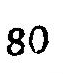80
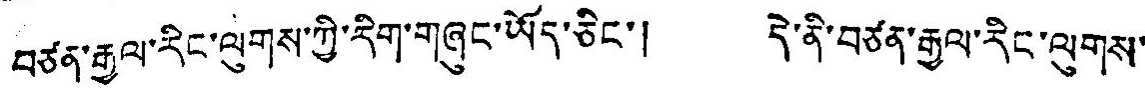བརྩན་རྒྱལ་རིང་ལུགས་ཀྱི་རིག་གཞུང་ཡོད་ཅིང་། དེ་ནི་བཙན་རྒྱལ་རིང་ལུགས་
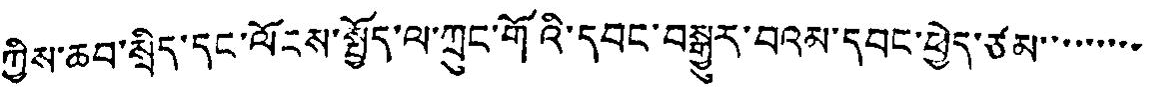རྱེས་ནུབ་སྲིད་དང་ལོངས་སྤྱོད་ལ་ཀྲུང་གོའི་དབང་བསྒྱུར་བའམ་དབང་ཕྱེད་ཙམ་་་་་་་་་
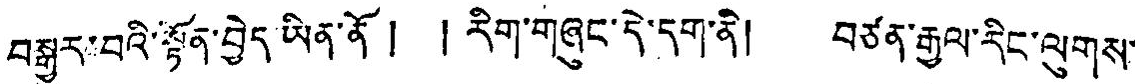བསྒྱུར་བའི་སྟོན་བྱེད་ཡིན་ནོ ། །རིག་གཞུང་དེ་དག་ནི། བཙན་རྒྱལ་རིང་ལུགས་
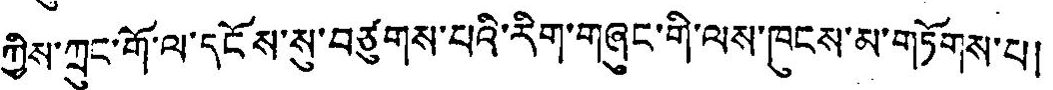ཀྱིས་ཀྲུང་གོ་ལ་དངོས་སུ་བཙུགས་པའི་རིག་གཞུང་གི་ལས་ཁུངས་མ་གཏོགས་པ།
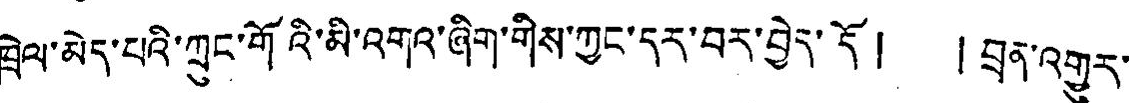ཁྲེལ་མེད་པའི་ཀྲུང་གོའི་མི་འགའ་ཞིག་གིས་ཀྱང་དར་བར་བྱེད་དོ། །བྲན་འགྱུར་
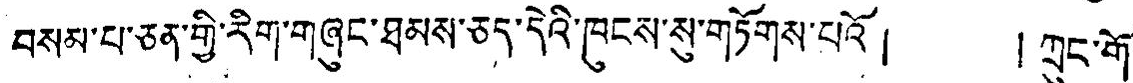བསམ་པ་ཅན་གྱི་རིག་གཞུང་ཐམས་ཅད་དེའི་ཁུངས་སུ་གཏོགས་པའོ། །ཀྲུང་གོ་
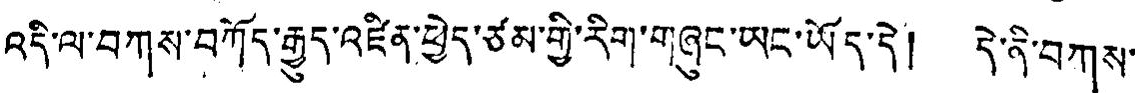འདི་ལ་བཀས་བཀོད་རྒྱུད་འཛིན་ཕྱེད་ཙམ་གྱི་རིག་གཞུང་ཡང་ཡོད་དེ། དེ་ནི་བཀས་
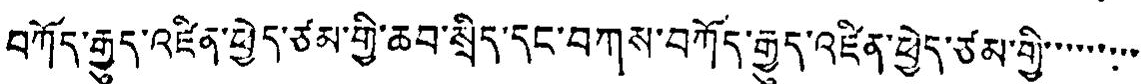བཀོད་རྒྱུད་འཛིན་ཕྱེད་ཙམ་གྱི་ཆབ་སྲིད་དང་བཀས་བཀོད་རྒྱུད་འཛིན་ཕྱེད་ཙམ་གྱི་་་་་་་་་
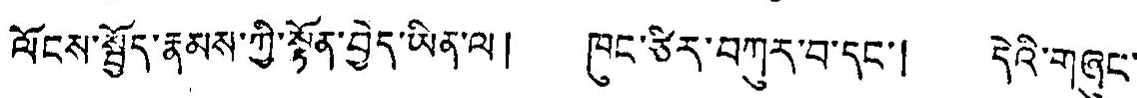ལོངས་སྦྱོད་རྣམས་ཀྱི་སྟོན་བྱེད་ཡིན་ལ། ཁང་ཙིར་བཀུར་བ་དང་། དེའི་གཞུང་
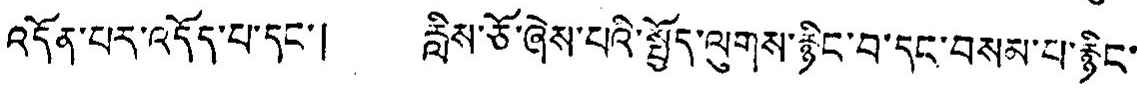འདོན་པར་འདོད་པ་དང་། རླིས་ཅོ་ཞེས་པའི་སྤྱོད་ལུགས་རྙིང་བ་དང་བསམ་པ་རྙིང་
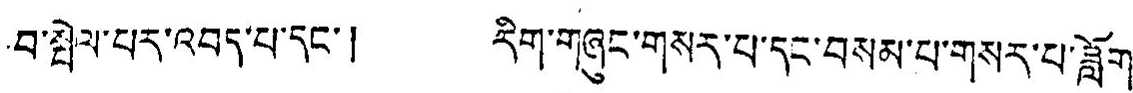བྱ་སྤེལ་པར་འབད་པ་དང་། རིག་གཞུང་གསར་པ་དང་བསམ་པ་གསར་པ་ཟློག་
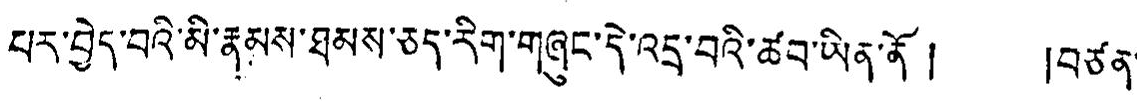པར་བྱེད་བའི་མི་རྣམས་ཐམས་ཅད་རིག་གཞུང་དེ་འདྲ་བའི་ཚབ་ཡིན་ནོ ། །བཙན་
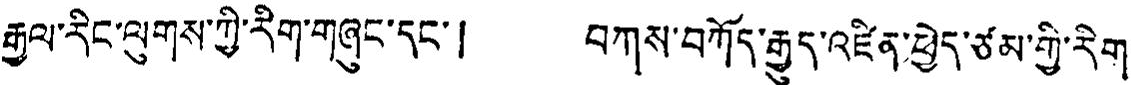རྒྱལ་རིང་ལུགས་ཀྱི་རིག་གཞུང་དང་། བཀས་བཀོད་རྒྱུད་འཛིན་ཕྱེད་ཙམ་གྱི་རིག་
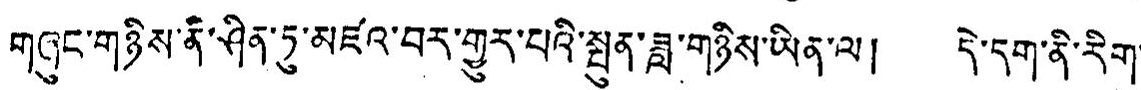གཞུང་གཉིས་ནི་ཤིན་ཏུ་མཛའ་བར་གྱུར་པའི་སྤུན་ཟླ་གཉིས་ཡིན་ལ། དེ་དག་ནི་རིག་
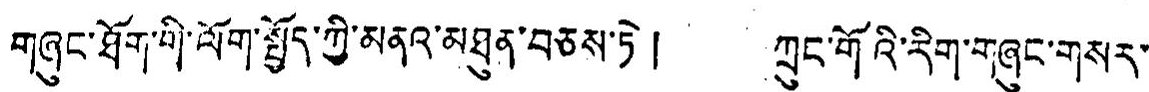གཞུང་ཐོག་གི་ལོག་སྤྱོད་ཀྱི་མནའ་མཐུན་བཅས་ཏེ། ཀྲུང་གོའི་རིག་གཞུང་གསར་
